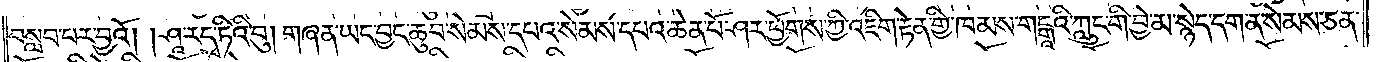བསླབ་པར་བྱའོ། །ཤཱ་ར་དྭ་ཏིའི་བུ། གཞན་ཡང་བྱང་ཆུབ་སེམས་དཔའ་སེམས་དཔའ་ཆེན་པོ་ཤར་ཕྱོགས་ཀྱི་འཇིག་རྟེན་གྱི་ཁམས་གངྒཱའི་ཀླུང་གི་བྱེ་མ་སྙེད་དག་ན་སེམས་ཅན་
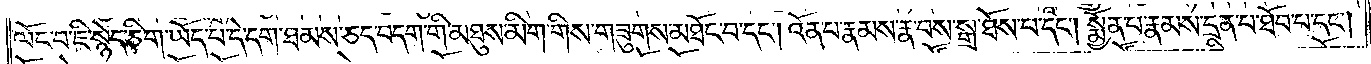ལོང་བ་ཇི་སྙེད་ཅིག་ཡོད་པ་དེ་དག་ཐམས་ཅད་བདག་གི་མཐུས་མིག་གིས་གཟུགས་མཐོང་བ་དང༌། འོན་པ་རྣམས་རྣ་བས་སྒྲ་ཐོས་པ་དང༌། སྨྱོན་པ་རྣམས་དྲན་པ་ཐོབ་པ་དང༌།
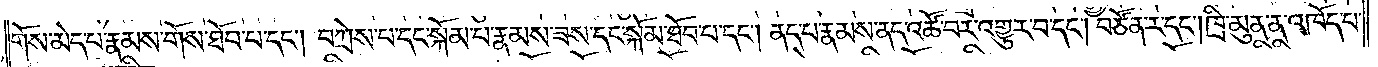གོས་མེད་པ་རྣམས་གོས་ཐོབ་པ་དང༌། བཀྲེས་པ་དང་སྐོམ་པ་རྣམས་ཟས་དང་སྐོམ་ཐོབ་པ་དང༌། ནད་པ་རྣམས་ནད་འཚོ་བར་འགྱུར་བ་དང༌། བཙོན་ར་དང༌། ཁྲི་མུན་ན་འཁོད་པ་
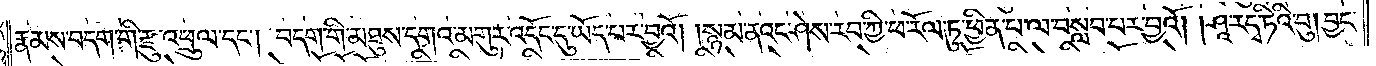རྣམས་བདག་གི་རྫུ་འཕྲུལ་དང༌། བདག་གི་མཐུས་དགའ་མགུར་འདོང་དུ་ཡོད་པར་བྱའོ། །སྙམ་ནའང་ཤེས་རབ་ཀྱི་ཕ་རོལ་ཏུ་ཕྱིན་པ་ལ་བསླབ་པར་བྱའོ། །ཤཱ་ར་དྭ་ཏིའི་བུ། བྱང་
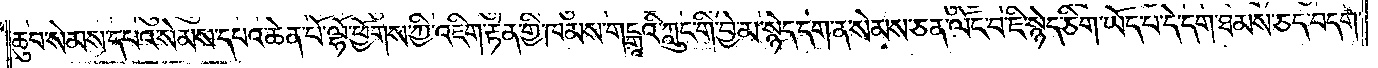ཆུབ་སེམས་དཔའ་སེམས་དཔའ་ཆེན་པོ་ལྷོ་ཕྱོགས་ཀྱི་འཇིག་རྟེན་གྱི་ཁམས་གངྒཱའི་ཀླུང་གི་བྱེ་མ་སྙེད་དག་ན་སེམས་ཅན་ལོང་བ་ཇི་སྙེད་ཅིག་ཡོད་པ་དེ་དག་ཐམས་ཅད་བདག་
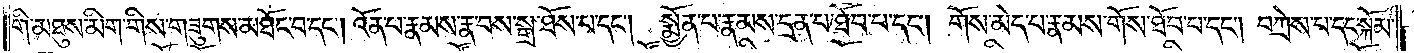གི་མཐུས་མིག་གིས་གཟུགས་མཐོང་བ་དང༌། འོན་པ་རྣམས་རྣ་བས་སྒྲ་ཐོས་པ་དང༌། སྨྱོན་པ་རྣམས་དྲན་པ་ཐོབ་པ་དང༌། གོས་མེད་པ་རྣམས་གོས་ཐོབ་པ་དང༌། བཀྲེས་པ་དང་སྐོམ་
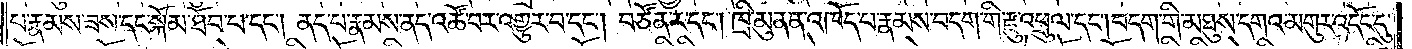པ་རྣམས་ཟས་དང་སྐོམ་ཐོབ་པ་དང༌། ནད་པ་རྣམས་ནད་འཚོ་བར་འགྱུར་བ་དང༌། བཙོན་ར་དང༌། ཁྲི་མུན་ན་འཁོད་པ་རྣམས་བདག་གི་རྫུ་འཕྲུལ་དང༌། བདག་གི་མཐུས་དགའ་མགུར་འདོང་དུ་
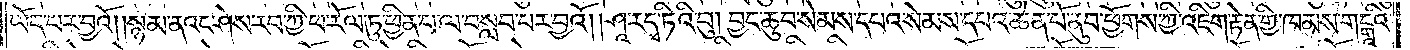ཡོད་པར་བྱའོ། །སྙམ་ནའང་ཤེས་རབ་ཀྱི་ཕ་རོལ་ཏུ་ཕྱིན་པ་ལ་བསླབ་པར་བྱའོ། །ཤཱ་ར་དྭ་ཏིའི་བུ། བྱང་ཆུབ་སེམས་དཔའ་སེམས་དཔའ་ཆེན་པོ་ནུབ་ཕྱོགས་ཀྱི་འཇིག་རྟེན་གྱི་ཁམས་གངྒཱའི་
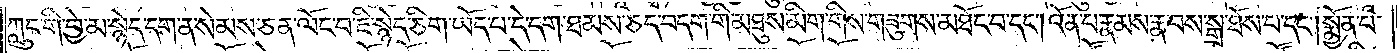ཀླུང་གི་བྱེ་མ་སྙེད་དག་ན་སེམས་ཅན་ལོང་བ་ཇི་སྙེད་ཅིག་ཡོད་པ་དེ་དག་ཐམས་ཅད་བདག་གི་མཐུས་མིག་གིས་གཟུགས་མཐོང་བ་དང༌། འོན་པ་རྣམས་རྣ་བས་སྒྲ་ཐོས་པ་དང༌། སྨྱོན་པ་
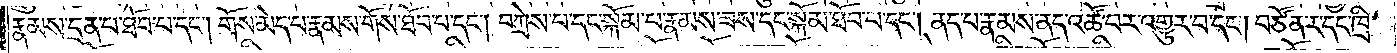རྣམས་དྲན་པ་ཐོབ་པ་དང༌། གོས་མེད་པ་རྣམས་གོས་ཐོབ་པ་དང༌། བཀྲེས་པ་དང་སྐོམ་པ་རྣམས་ཟས་དང་སྐོམ་ཐོབ་པ་དང༌། ནད་པ་རྣམས་ནད་འཚོ་བར་འགྱུར་བ་དང༌། བཙོན་ར་དང་ཁྲི་
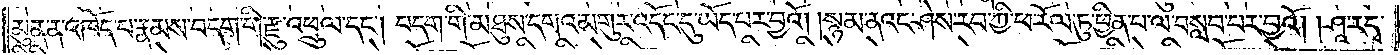མུན་ན་འཁོད་པ་རྣམས་བདག་གི་རྫུ་འཕྲུལ་དང༌། བདག་གི་མཐུས་དགའ་མགུར་འདོང་དུ་ཡོད་པར་བྱའོ། །སྙམ་ནའང་ཤེས་རབ་ཀྱི་ཕ་རོལ་ཏུ་ཕྱིན་པ་ལ་བསླབ་པར་བྱའོ། །ཤཱ་ར་དྭ་
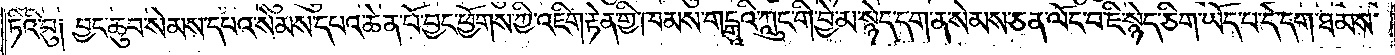ཏིའི་བུ། བྱང་ཆུབ་སེམས་དཔའ་སེམས་དཔའ་ཆེན་པོ་བྱང་ཕྱོགས་ཀྱི་འཇིག་རྟེན་གྱི་ཁམས་གངྒཱའི་ཀླུང་གི་བྱེ་མ་སྙེད་དག་ན་སེམས་ཅན་ལོང་བ་ཇི་སྙེད་ཅིག་ཡོད་པ་དེ་དག་ཐམས་
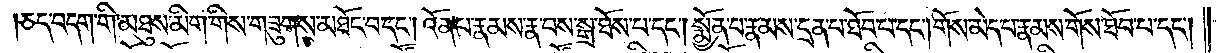ཅད་བདག་གི་མཐུས་མིག་གིས་གཟུགས་མཐོང་བ་དང༌། འོན་པ་རྣམས་རྣ་བས་སྒྲ་ཐོས་པ་དང༌། སྨྱོན་པ་རྣམས་དྲན་པ་ཐོབ་པ་དང༌། གོས་མེད་པ་རྣམས་གོས་ཐོབ་པ་དང༌།
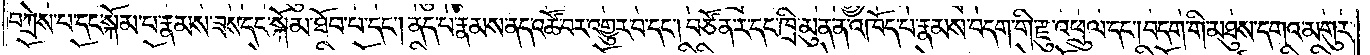བཀྲེས་པ་དང་སྐོམ་པ་རྣམས་ཟས་དང་སྐོམ་ཐོབ་པ་དང༌། ནད་པ་རྣམས་ནད་འཚོ་བར་འགྱུར་བ་དང༌། བཙོན་ར་དང་ཁྲི་མུན་ན་འཁོད་པ་རྣམས་བདག་གི་རྫུ་འཕྲུལ་དང༌། བདག་གི་མཐུས་དགའ་མགུར་
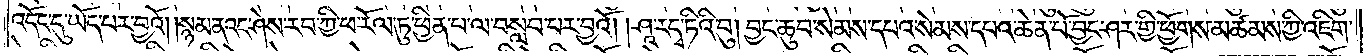འདོང་དུ་ཡོད་པར་བྱའོ། །སྙམ་ནའང་ཤེས་རབ་ཀྱི་ཕ་རོལ་ཏུ་ཕྱིན་པ་ལ་བསླབ་པར་བྱའོ། །ཤཱ་ར་དྭ་ཏིའི་བུ། བྱང་ཆུབ་སེམས་དཔའ་སེམས་དཔའ་ཆེན་པོ་བྱང་ཤར་གྱི་ཕྱོགས་མཚམས་ཀྱི་འཇིག་
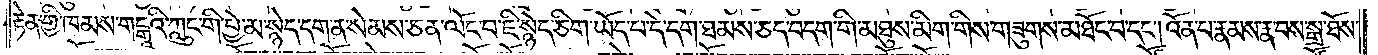རྟེན་གྱི་ཁམས་གངྒཱའི་ཀླུང་གི་བྱེ་མ་སྙེད་དག་ན་སེམས་ཅན་ལོང་བ་ཇི་སྙེད་ཅིག་ཡོད་པ་དེ་དག་ཐམས་ཅད་བདག་གི་མཐུས་མིག་གིས་གཟུགས་མཐོང་བ་དང༌། འོན་པ་རྣམས་རྣ་བས་སྒྲ་ཐོས་
